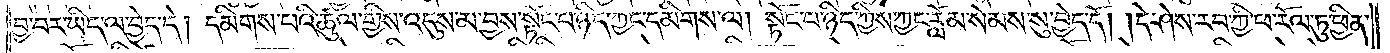བྱ་བར་ཡིད་ལ་བྱེད་དེ། དམིགས་པའི་ཚུལ་གྱིས་འདུས་མ་བྱས་སྟོང་པ་ཉིད་ཀྱང་དམིགས་ལ། སྟོང་པ་ཉིད་ཀྱིས་ཀྱང་རློམ་སེམས་སུ་བྱེད་དོ། །དེ་ཤེས་རབ་ཀྱི་ཕ་རོལ་ཏུ་ཕྱིན་
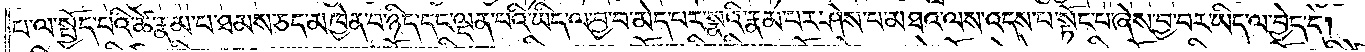པ་ལ་སྤྱོད་པའི་ཚེ་རྣམ་པ་ཐམས་ཅད་མཁྱེན་པ་ཉིད་དང་ལྡན་པའི་ཡིད་ལ་བྱ་བ་མེད་པར་སྣའི་རྣམ་པར་ཤེས་པ་མཐའ་ལས་འདས་པ་སྟོང་པ་ཞེས་བྱ་བར་ཡིད་ལ་བྱེད་དེ།
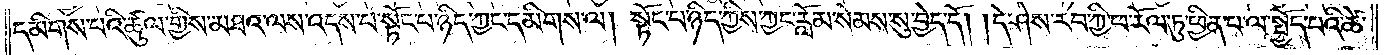དམིགས་པའི་ཚུལ་གྱིས་མཐའ་ལས་འདས་པ་སྟོང་པ་ཉིད་ཀྱང་དམིགས་ལ། སྟོང་པ་ཉིད་ཀྱིས་ཀྱང་རློམ་སེམས་སུ་བྱེད་དོ། །དེ་ཤེས་རབ་ཀྱི་ཕ་རོལ་ཏུ་ཕྱིན་པ་ལ་སྤྱོད་པའི་ཚེ་
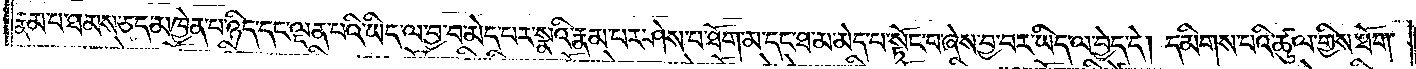རྣམ་པ་ཐམས་ཅད་མཁྱེན་པ་ཉིད་དང་ལྡན་པའི་ཡིད་ལ་བྱ་བ་མེད་པར་སྣའི་རྣམ་པར་ཤེས་པ་ཐོག་མ་དང་ཐ་མ་མེད་པ་སྟོང་པ་ཞེས་བྱ་བར་ཡིད་ལ་བྱེད་དེ། དམིགས་པའི་ཚུལ་གྱིས་ཐོག་
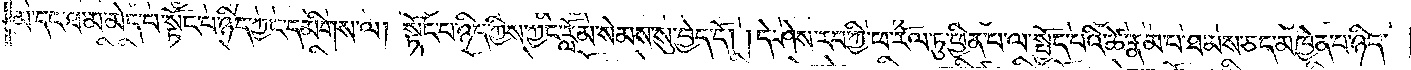མ་དང་ཐ་མ་མེད་པ་སྟོང་པ་ཉིད་ཀྱང་དམིགས་ལ། སྟོང་པ་ཉིད་ཀྱིས་ཀྱང་རློམ་སེམས་སུ་བྱེད་དོ། །དེ་ཤེས་རབ་ཀྱི་ཕ་རོལ་ཏུ་ཕྱིན་པ་ལ་སྤྱོད་པའི་ཚེ་རྣམ་པ་ཐམས་ཅད་མཁྱེན་པ་ཉིད་
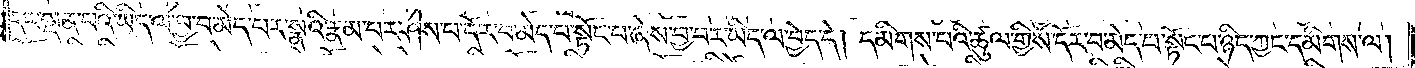དང་ལྡན་པའི་ཡིད་ལ་བྱ་བ་མེད་པར་སྣའི་རྣམ་པར་ཤེས་པ་དོར་བ་མེད་པ་སྟོང་པ་ཞེས་བྱ་བར་ཡིད་ལ་བྱེད་དེ། དམིགས་པའི་ཚུལ་གྱིས་དོར་བ་མེད་པ་སྟོང་པ་ཉིད་ཀྱང་དམིགས་ལ།
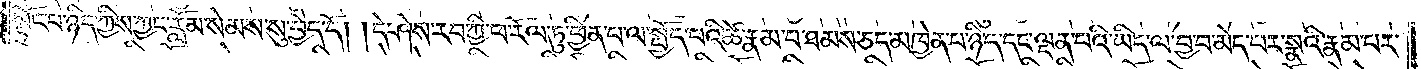སྟོང་པ་ཉིད་ཀྱིས་ཀྱང་རློམ་སེམས་སུ་བྱེད་དོ། །དེ་ཤེས་རབ་ཀྱི་ཕ་རོལ་ཏུ་ཕྱིན་པ་ལ་སྤྱོད་པའི་ཚེ་རྣམ་པ་ཐམས་ཅད་མཁྱེན་པ་ཉིད་དང་ལྡན་པའི་ཡིད་ལ་བྱ་བ་མེད་པར་སྣའི་རྣམ་པར་
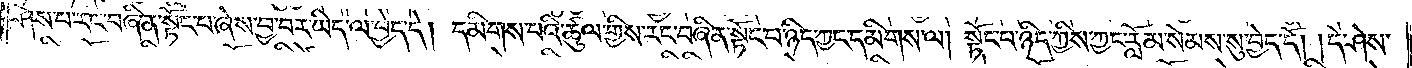ཤེས་པ་རང་བཞིན་སྟོང་པ་ཞེས་བྱ་བར་ཡིད་ལ་བྱེད་དེ། དམིགས་པའི་ཚུལ་གྱིས་རང་བཞིན་སྟོང་པ་ཉིད་ཀྱང་དམིགས་ལ། སྟོང་པ་ཉིད་ཀྱིས་ཀྱང་རློམ་སེམས་སུ་བྱེད་དོ། །དེ་ཤེས་
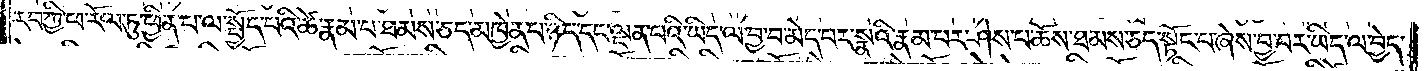རབ་ཀྱི་ཕ་རོལ་ཏུ་ཕྱིན་པ་ལ་སྤྱོད་པའི་ཚེ་རྣམ་པ་ཐམས་ཅད་མཁྱེན་པ་ཉིད་དང་ལྡན་པའི་ཡིད་ལ་བྱ་བ་མེད་པར་སྣའི་རྣམ་པར་ཤེས་པ་ཆོས་ཐམས་ཅད་སྟོང་པ་ཞེས་བྱ་བར་ཡིད་ལ་བྱེད་
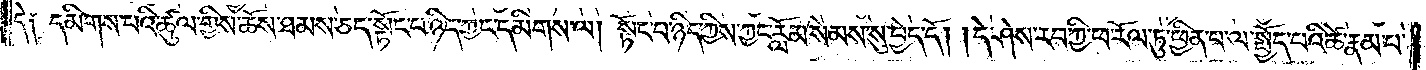དེ༑ དམིགས་པའི་ཚུལ་གྱིས་ཆོས་ཐམས་ཅད་སྟོང་པ་ཉིད་ཀྱང་དམིགས་ལ། སྟོང་པ་ཉིད་ཀྱིས་ཀྱང་རློམ་སེམས་སུ་བྱེད་དོ། །དེ་ཤེས་རབ་ཀྱི་ཕ་རོལ་ཏུ་ཕྱིན་པ་ལ་སྤྱོད་པའི་ཚེ་རྣམ་པ་
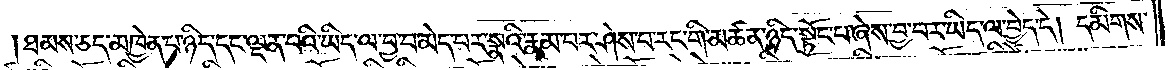ཐམས་ཅད་མཁྱེན་པ་ཉིད་དང་ལྡན་པའི་ཡིད་ལ་བྱ་བ་མེད་པར་སྣའི་རྣམ་པར་ཤེས་པ་རང་གི་མཚན་ཉིད་སྟོང་པ་ཞེས་བྱ་བར་ཡིད་ལ་བྱེད་དེ། དམིགས་
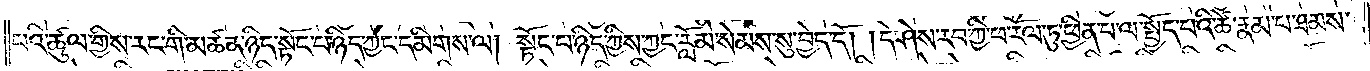པའི་ཚུལ་གྱིས་རང་གི་མཚན་ཉིད་སྟོང་པ་ཉིད་ཀྱང་དམིགས་ལ། སྟོང་པ་ཉིད་ཀྱིས་ཀྱང་རློམ་སེམས་སུ་བྱེད་དོ། །དེ་ཤེས་རབ་ཀྱི་ཕ་རོལ་ཏུ་ཕྱིན་པ་ལ་སྤྱོད་པའི་ཚེ་རྣམ་པ་ཐམས་
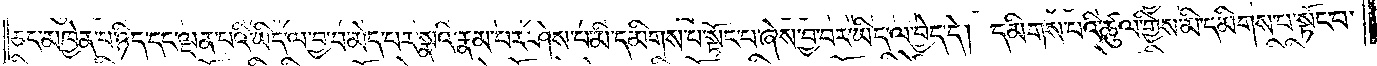ཅད་མཁྱེན་པ་ཉིད་དང་ལྡན་པའི་ཡིད་ལ་བྱ་བ་མེད་པར་སྣའི་རྣམ་པར་ཤེས་པ་མི་དམིགས་པ་སྟོང་པ་ཞེས་བྱ་བར་ཡིད་ལ་བྱེད་དེ། དམིགས་པའི་ཚུལ་གྱིས་མི་དམིགས་པ་སྟོང་པ་
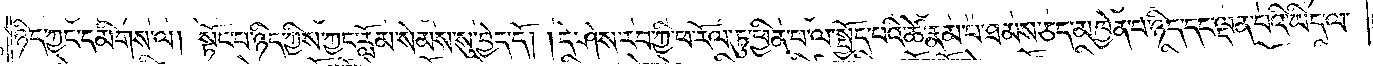ཉིད་ཀྱང་དམིགས་ལ། སྟོང་པ་ཉིད་ཀྱིས་ཀྱང་རློམ་སེམས་སུ་བྱེད་དོ། །དེ་ཤེས་རབ་ཀྱི་ཕ་རོལ་ཏུ་ཕྱིན་པ་ལ་སྤྱོད་པའི་ཚེ་རྣམ་པ་ཐམས་ཅད་མཁྱེན་པ་ཉིད་དང་ལྡན་པའི་ཡིད་ལ་
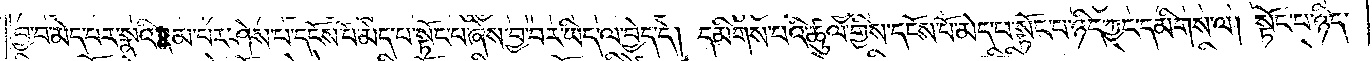བྱ་བ་མེད་པར་སྣའི་རྣམ་པར་ཤེས་པ་དངོས་པོ་མེད་པ་སྟོང་པ་ཞེས་བྱ་བར་ཡིད་ལ་བྱེད་དེ། དམིགས་པའི་ཚུལ་གྱིས་དངོས་པོ་མེད་པ་སྟོང་པ་ཉིད་ཀྱང་དམིགས་ལ། སྟོང་པ་ཉིད་
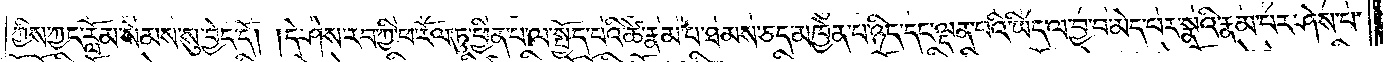ཀྱིས་ཀྱང་རློམ་སེམས་སུ་བྱེད་དོ། །དེ་ཤེས་རབ་ཀྱི་ཕ་རོལ་ཏུ་ཕྱིན་པ་ལ་སྤྱོད་པའི་ཚེ་རྣམ་པ་ཐམས་ཅད་མཁྱེན་པ་ཉིད་དང་ལྡན་པའི་ཡིད་ལ་བྱ་བ་མེད་པར་སྣའི་རྣམ་པར་ཤེས་པ་
